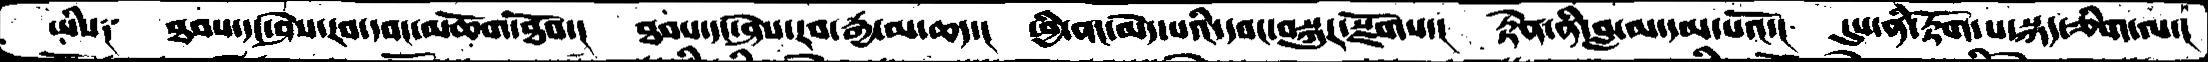ཡིས༑ ཐབས་དང་ཤེས་རབ་དབང་མཆོག་ཐོབ་།  ཐབས་དང་ཤེས་རབ་རྒྱ་མ་ཆད་།  ཕྱི་ནང་མེད་པའི་དབང་བསྐུར་སྫོགས་།  རྟེན་ནི་བླ་མ་དམ་པའོ་།  དུས་ནི་རྟོག་པ་སྐད་ཅིག་ལ་།
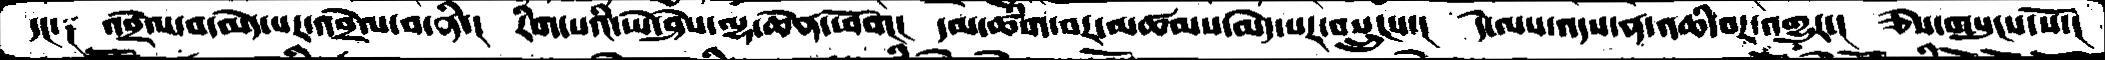དང་༑ འབྲེལ་བ་མེད་པར་འབྲེལ་བ་ནི་།  རིག་པའི་ཡེ་ཤེས་ལྷ་ཆེན་ཕོག།  དམ་ཚིག་བར་མཚམས་མེད་པར་བསྲུངས་།  དེ་ལས་འདས་ན་འཆི་བར་འགྱུར་།  ཅེས་གསུངས་སོ་།
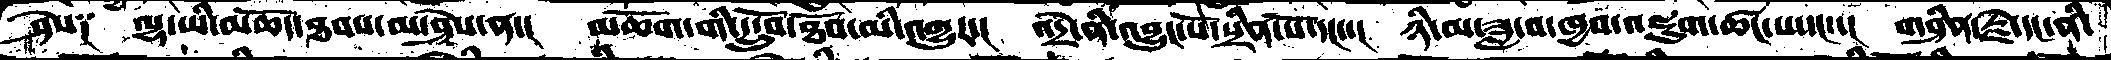ཤེས༑ ལྷ་ཡི་མཆོད་ཐབས་མ་ཤེས་ན་།  མཆོག་གི་དངྲོུབ་ཐོབ་མི་འགྱུར་།  འདྲེ་ནི་འབྱུང་པོ་སྲིན་པོ་དང་་།  ཉི་མ་ཟླ་བ་ཁྱབ་འཇུག་ཚང་པ་དང་་།  གཤིན་རྗེ་དང་ནི་
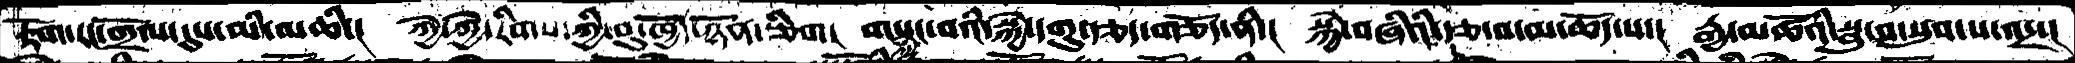རྟོག་རང་གྲོལ་དུས་མི་མཆི་།  ཀྱེ་ཀྱེ་རིགས་ཀྱི་བུ་ཁྱོད་ཉོན་ཅིག།  གསུང་བའི་སྐྱེ་དགུ་རྩད་གཅོད་ནི་།  སྐྱེ་བཞིའི་རྩ་བ་མ་ཆོད་པ་།  རྒྱ་མཚོའི་སྦུ་བ་སུབ་པ་འདྲ་།
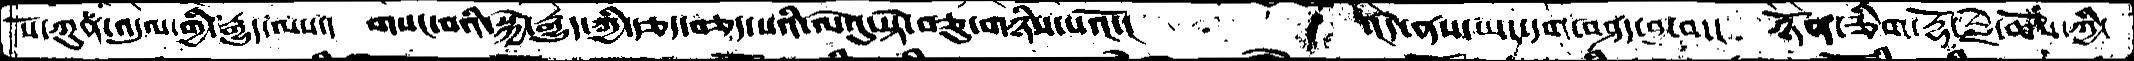པོ་ཀུན་འདུལ་གྱི་རྒྱུད་ལས་།  གསང་བའི་སྐྱེ་རྒྱུད་ཀྱི་རྩད་བཅད་པའི་ལེའུ་སྟེ་བཅུ་གཉིས་པའོ་།  ་ངདེ་ནས་ཡང་དག་བཤད་བྱ་བ་།  ཉོན་ཅིག་རྡོ་རྗེ་ཆོས་ཀྱི་
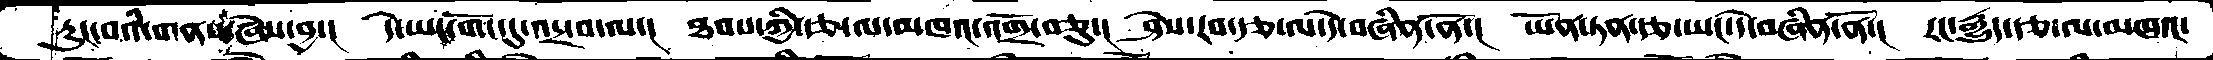རུང་བའི་གནས་ཞེས་བྱ་།  དེ་ཡང་གོང་དུ་འདྲ་བ་ལ་།  ཐབས་ཀྱི་རྩ་ལ་མཁའ་འགྲོ་བཅུ་།  ཤེས་རབ་རྩ་ལ་དེ་བཞིན་ནོ་།  ཡོན་ཏན་རྩ་ཡང་དེ་བཞིན་ནོ་།  རང་རྒྱུད་རྩ་ལ་མཁའ་
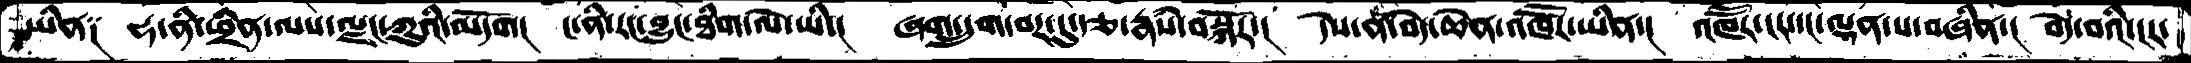ཡིན༑  ཧ་ནི་ཕྲིན་ལས་ལྗང་ཀུའི་མདོག།  ང་ནི་རང་བྱུང་ཐིག་ལེ་ཡི་།  ཞག་དྲུག་བར་དུ་རྩ་རྣཾས་བསྐོོར་།  དེས་ནི་བདེ་ཆེན་འཁཽར་ཡིན་།  འཁཽར་ངར་དང་ལྡན་པ་བཞིན་།  བདེ་བའི་ངར་
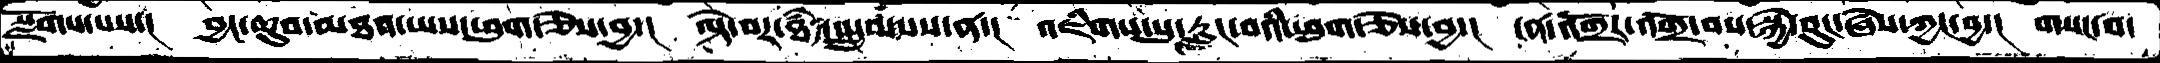སྫོགས་པས་།   བྱང་ཆུབ་མཐའ་ཡས་ཕུག་ཅེས་བྱ་།  ལྟེ་བར་ཐཾད་སྤྲུལ་པས་ན་།  འཇིགས་སུ་རུང་བའི་ཕུག་ཅེས་བྱ་།  ངན་འགྲོར་འགྲོ་བས་སྐྱེ་བུང་ཞེས་ཀྱང་བྱ་།  གསང་བ་
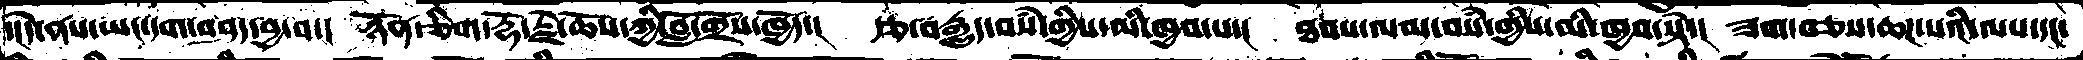་ངདེ་ནས་ཡང་དག་བཤད་བྱ་བ་།  ཉོན་ཅིག་རྡོ་རྗེ་ཆོས་ཀྱི་བློ་གྲོས་ཁྱོད་།  རྩ་བརྒྱུད་བསཾ་གྱིས་མི་ཁྱབ་པ་།  ཐབས་ལམ་བསཾ་གྱིས་མི་ཁྱབ་སྟེ་།  ཟག་བཟས་ཆཌ་པའི་ལས་དང་
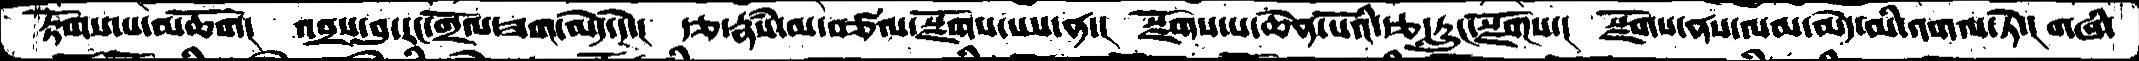རྟོགས་པ་མཆོག།  འབྲས་བུ་རང་གྲོལ་ཟག་མེད་དེ་།  རྩ་རྣཾས་མ་བཙལ་སྫོགས་པས་ན་།  སྫོགས་པ་ཆེན་པོའི་རྩ་རླུང་སྫོགས་།  སྫོགས་ནས་ལམ་མེད་མི་འགལ་ཏེ་།  གཞི་
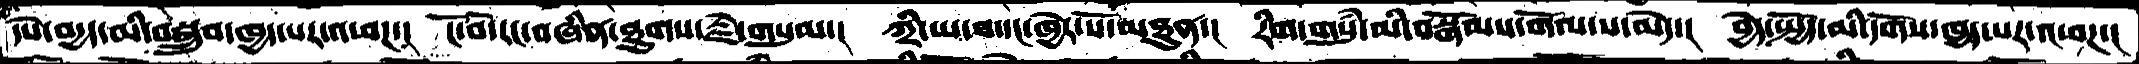དཔེ་བདྱད་མི་བསྒྲུབ་ཁྱད་པར་འཕཌ་།  ངོ་བོ་རང་བཞིན་ཐུགས་རྗེ་གསུམ་།   ཀྲི་ཡ་བ་དང་ཁྱེར་སོ་མཐུན་།  རིག་གསུཾ་མིབསྒོམས་གོལ་ས་མེད་།  བྱེད་སྤྱོད་མི་དགོས་ཁྱད་པར་འཕཌ་།
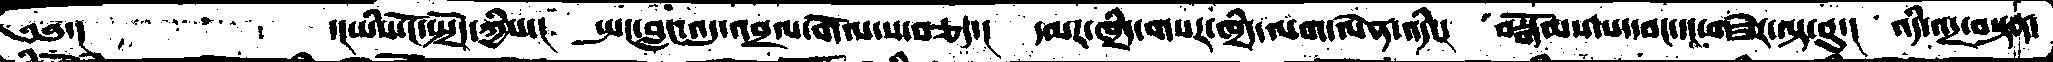༄༅་།  ་།ཡིས་ངོ་སྤྲོད་ཀྱིས་། སྤང་བླང་འདུ་འབྲལ་གོལ་ས་བཅད་།  དམར་ཁྲིད་གསར་ཁྲིད་ལག་ལེན་འདི་།  བསྒོམས་པ་དབང་དང་གཟེར་ལྟ་བུ་།  འདི་འདྲ་བསྟན་
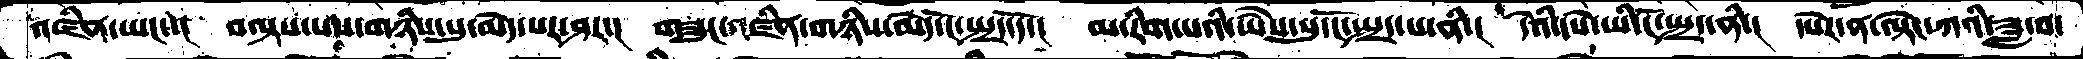འཛིན་ཡང་་།  བལྟས་པས་གཉིས་སུ་མེད་པར་ཤར་།  གཟུང་འཛིན་གཉིས་མེད་ངོ་སྤྲད་དོ་།  མ་རིག་པའི་ཡཻས་སུ་ངོ་སྤྲད་པ་ནི་།  དེའི་དཔེ་ཡི་ངོ་སྤྲད་ནི་།  དཔེར་ན་ལྟེང་ཀའི་ཟླ་བ་
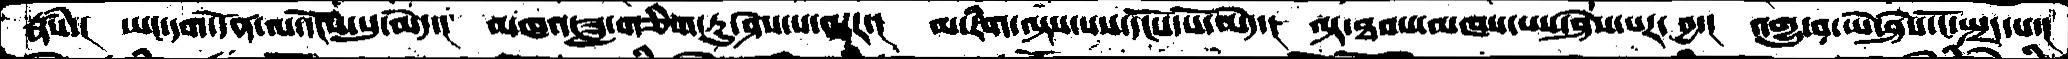རྣཾས་།   ཡང་དག་དོན་ལ་དངོས་སུ་མེད་།  མཁའ་ཟླ་གཅིག་ཏུ་ཤེས་པ་ལྟར་།  མ་རིག་ལྟས་པས་དངོས་པོ་མེད་།  ལྟ་ཐབས་མཁས་པས་ཤེས་པར་བྱ་།  འགྱུ་བ་ཡེ་ཤེས་ངོ་སྤྲད་པ་།
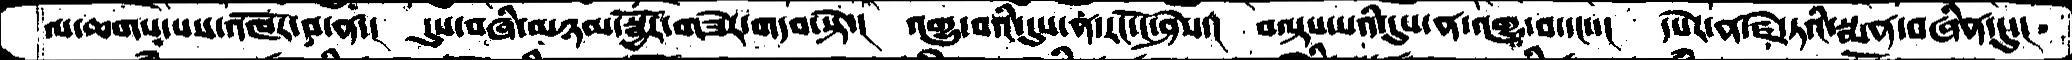ལ་ཆགས་པས་འཁོར་བ་ན་།  དུས་བཞི་མཉམ་སྦྱོར་གཟེར་གདབ་སྟེ་།  འགྱུ་བའི་དུས་ན་རང་ངོ་ཤེས་།  བལྟས་པའི་དུས་ན་འགྱུ་བ་དང་་།  དཔེར་ན་ཛེ་ཏའི་སྨན་བཞིན་དུ་།
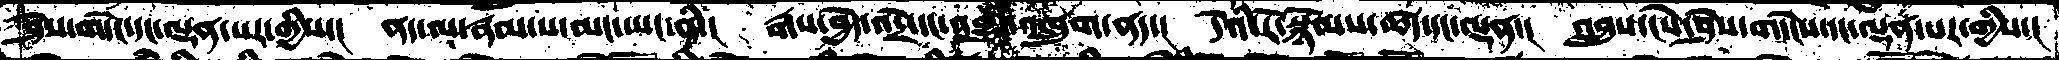ཤེས་གདེང་དང་ལྡན་པར་གྱིས་།  ནད་ལ་རྣམ་པ་མང་ཡང་ནི་།  རྒས་བྱེད་འདྲེ་དང་འབྱུང་འཁྲུག་ནད་།  དེའི་རོ་སྙོམས་ཚད་དང་ལྡན་།  འབྲུས་ངེས་ཤེས་གདེངས་དང་ལྡན་པར་གྱིས་།
